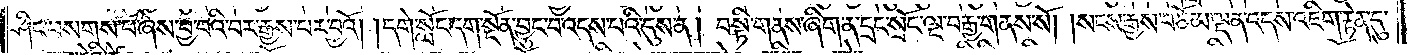ཤིང་བསགས་པ་ཞེས་བྱ་བའི་བར་རྒྱས་པར་བྱའོ། །དགེ་སློང་དག་སྔོན་བྱུང་བ་འདས་པའི་དུས་ན། བསྟི་གནས་ཞིག་ན་དྲང་སྲོང་ལྔ་བརྒྱ་གནས་སོ། །སངས་རྒྱས་བཅོམ་ལྡན་འདས་འཇིག་རྟེན་དུ་
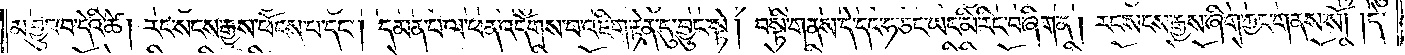མ་བྱུང་བ་དེའི་ཚེ། རང་སངས་རྒྱས་ཕོངས་པ་དང༌། དམན་པ་ལ་ཕན་འདོགས་པ་འཇིག་རྟེན་དུ་བྱུང་སྟེ། བསྟི་གནས་དེ་དང་ཧ་ཅང་ཡང་མི་རིང་བ་ཞིག་ན། རང་སངས་རྒྱས་ཞིག་ཀྱང་གནས་སོ། །དེ་
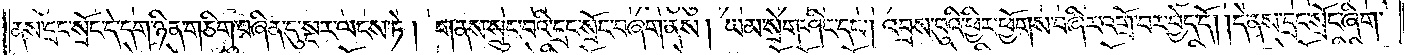ནས་དྲང་སྲོང་དེ་དག་ཉིན་གཅིག་བཞིན་དུ་སྔར་ལངས་ཏེ། གནས་སྲུང་བའི་དྲང་སྲོང་བཞག་ནས། ཡམ་སྲེག་ཤིང་དང༌། འབྲས་བུའི་ཕྱིར་ཕྱོགས་བཞིར་འགྲོ་བར་བྱེད་དོ། །དེ་ནས་དྲང་སྲོང་ཞིག་
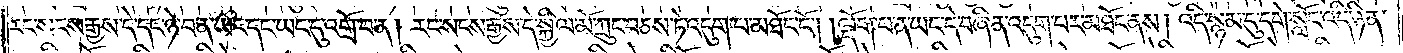རང་སངས་རྒྱས་དེ་དང་ཉེ་བ་ན་ཡང་དང་ཡང་དུ་འགྲོ་བ་ན། རང་སངས་རྒྱས་དེ་སྐྱིལ་མོ་ཀྲུང་བཅས་ཏེ་འདུག་པ་མཐོང་ངོ༌། །ལྡོག་པ་ན་ཡང་དེ་བཞིན་འདུག་པར་མཐོང་ནས། འདི་སྙམ་དུ་དགེ་སློང་འདི་ཉིན་
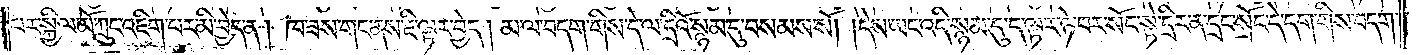པར་སྐྱིལ་མོ་ཀྲུང་འཇིག་པར་མི་བྱེད་ན། ཁ་ཟས་གང་ནས་ཇི་ལྟར་བྱེད། མ་ལ་བདག་གིས་དེ་ལ་དྲིའོ་སྙམ་དུ་བསམས་སོ། །དེས་ཡང་འདི་སྙམ་དུ་ད་ལྟར་ཉེ་བར་སོང་སྟེ་དྲིར་ན་དྲང་སྲོང་དེ་དག་གིས་བདག་
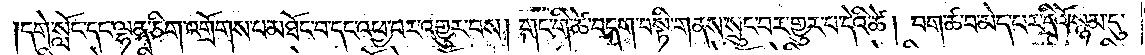དགེ་སློང་དང་ལྷན་ཅིག་འགྲོགས་པ་མཐོང་བ་དང་འཕྱ་བར་འགྱུར་བས། གང་གི་ཚེ་བདག་བསྟི་གནས་སྲུང་བར་གྱུར་པ་དེའི་ཚེ། བག་ཚ་བ་མེད་པར་དྲིའོ་སྙམ་དུ་
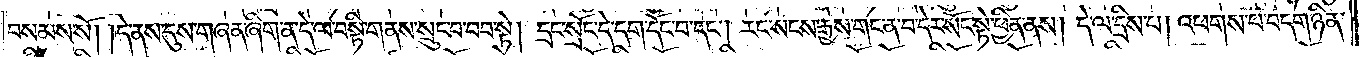བསམས་སོ། །དེ་ནས་དུས་གཞན་ཞིག་ན་དེ་ལ་བསྟི་གནས་སྲུང་བ་བབ་སྟེ། དྲང་སྲོང་དེ་དག་དོང་བ་དང༌། རངས་སངས་རྒྱས་གང་ན་བ་དེར་སོང་སྟེ་ཕྱིན་ནས། དེ་ལ་དྲིས་པ། འཕགས་པ་བདག་ཉིན་
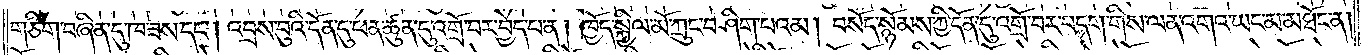གཅིག་བཞིན་དུ་ཁ་ཟས་དང༌། འབྲས་བུའི་དོན་དུ་ཕན་ཚུན་དུ་འགྲོ་བར་བྱེད་པ་ན། ཁྱོད་སྐྱིལ་མོ་ཀྲུང་བཤིག་པའམ། བསོད་སྙོམས་ཀྱི་དོན་དུ་འགྲོ་བར་བདག་གིས་ལན་འགའ་ཡང་མ་མཐོང་ན།
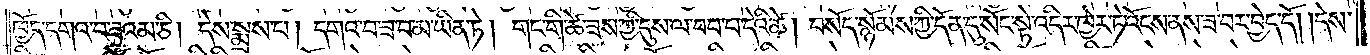ཁྱོད་དགའ་བ་ཟའམ་ཅི། དེས་སྨྲས་པ། དགའ་བ་ཟ་བ་མ་ཡིན་ཏེ། གང་གི་ཚེ་ཟས་ཀྱི་དུས་ལ་བབ་པ་དེའི་ཚེ། བསོད་སྙོམས་ཀྱི་དོན་དུ་སོང་སྟེ་འདིར་ཁྱེར་ཏེ་འོངས་ནས་ཟ་བར་བྱེད་དོ། །དེས་
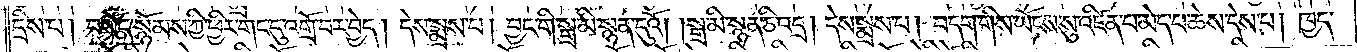དྲིས་པ། བསོད་སྙོམས་ཀྱི་ཕྱིར་གང་དུ་འགྲོ་བར་བྱེད། དེས་སྨྲས་པ། བྱང་གི་སྒྲ་མི་སྙན་དུའོ། །སྒྲ་མི་སྙན་ཅི་འདྲ། དེས་སྨྲས་པ། བདག་གིས་ཡོངས་སུ་འཛིན་པ་མེད་པ་ཆེས་དེས་པ། ཁྱད་
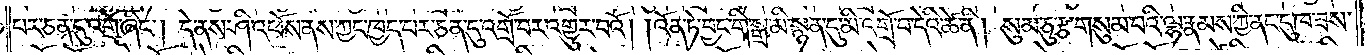པར་ཅན་དུ་འགྲོ་ཞིང༌། དེ་ནས་ཤི་འཕོས་ནས་ཀྱང་ཁྱད་པར་ཅན་དུ་འགྲོ་བར་འགྱུར་བའོ། །འོན་ཏེ་བྱང་གི་སྒྲ་མི་སྙན་དུ་མི་འགྲོ་བ་དེའི་ཚེ་ནི། སུམ་ཅུ་རྩ་གསུམ་པའི་ལྷ་རྣམས་ཀྱི་ནང་དུ་ཁ་ཟས་
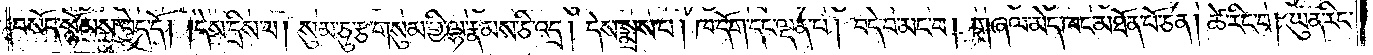བསོད་སྙོམས་བྱེད་དོ། །དེས་དྲིས་པ། སུམ་ཅུ་རྩ་གསུམ་གྱི་ལྷ་རྣམས་ཅི་འདྲ། དེས་སྨྲས་པ། ཁ་དོག་དང་ལྡན་པ། བདེ་བ་མང་བ། གཞལ་མེད་ཁང་མཐོན་པོ་ཅན། ཚེ་རིང་བ། ཡུན་རིང་
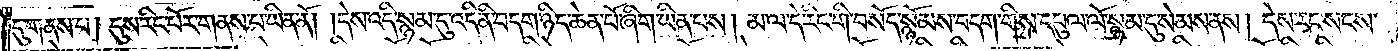དུ་གནས་པ། དུས་རིང་པོར་གནས་པ་ཡིན་ནོ། །དེས་འདི་སྙམ་དུ་འདི་ནི་བདག་ཉིད་ཆེན་པོ་ཞིག་ཡིན་པས། མ་ལ་དེ་རིང་གི་བསོད་སྙོམས་བདག་གིས་དབུལ་ལོ་སྙམ་དུ་སེམས་ནས། དེས་རང་སངས་
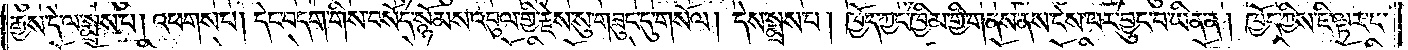རྒྱས་དེ་ལ་སྨྲས་པ། འཕགས་པ། དེང་བདག་གིས་བསོད་སྙོམས་འབུལ་གྱི་རྗེས་སུ་གཟུང་དུ་གསོལ། དེས་སྨྲས་པ། ཁྱོད་ཀྱང་ཁྱིམ་གྱི་གནས་ནས་ངེས་པར་བྱུང་བ་ཡིན་ན། ཁྱོད་ཀྱིས་ཇི་ལྟར་ང་
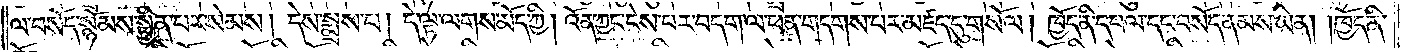ལ་བསོད་སྙོམས་སྦྱིན་པར་སེམས། དེས་སྨྲས་པ། དེ་ལྟ་ལགས་མོད་ཀྱི། འོན་ཀྱང་ངེས་པར་བདག་ལ་ཕན་གདགས་པར་མཛད་དུ་གསོལ། ཁྱོད་ནི་དཔལ་དང་བསོད་ནམས་ཡིན། །ཁྱོད་ནི་
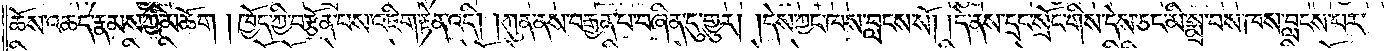ཆོས་འཆད་རྣམས་ཀྱི་མཆོག །ཁྱོད་ཀྱི་བརྩོན་པས་འཇིག་རྟེན་འདི། །ཀུན་ནས་བརྒྱན་པ་བཞིན་དུ་གྱུར། །དེས་ཀྱང་ཁས་བླངས་སོ། །དེ་ནས་དྲང་སྲོང་གིས་དེས་ཅང་མི་སྨྲ་བས་ཁས་བླངས་པར་
